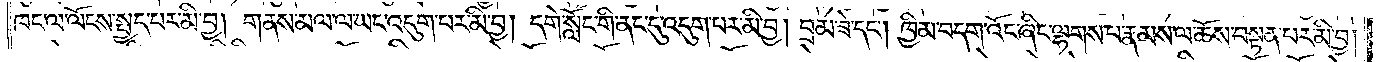ཁང་ལ་ལོངས་སྤྱད་པར་མི་བྱ། གནས་མལ་ལ་ཡང་འདུག་པར་མི་བྱ། དགེ་སློང་གི་ནང་དུ་འདུག་པར་མི་བྱ། བྲམ་ཟེ་དང༌། ཁྱིམ་བདག་འོང་ཞིང་ལྷགས་པ་རྣམས་ལ་ཆོས་བསྟན་པར་མི་བྱ།
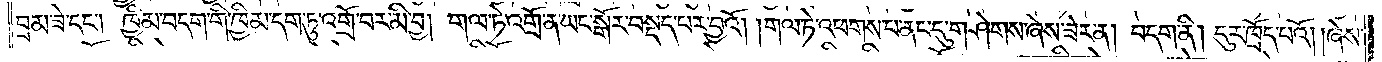བྲམ་ཟེ་དང༌། ཁྱིམ་བདག་གི་ཁྱིམ་དག་ཏུ་འགྲོ་བར་མི་བྱ། གལ་ཏེ་འགྲོ་ན་ཡང་སྒོར་བསྡད་པར་བྱའོ། །གལ་ཏེ་འཕགས་པ་ནང་དུ་གཤེགས་ཞེས་ཟེར་ན། བདག་ནི། དུར་ཁྲོད་པའོ། །ཞེས་
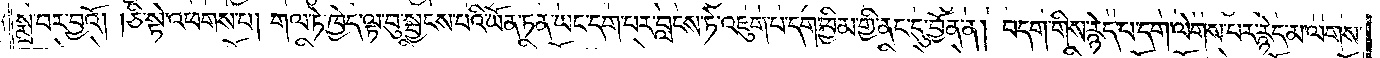སྨྲ་བར་བྱའོ། །ཅི་སྟེ་འཕགས་པ། གལ་ཏེ་ཁྱེད་ལྟ་བུ་སྦྱངས་པའི་ཡོན་ཏན་ཡང་དག་པར་བླངས་ཏེ་འཇུག་པ་དག་ཁྱིམ་གྱི་ནང་དུ་བྱོན་ན། བདག་གིས་རྙེད་པ་དག་ལེགས་པར་རྙེད་མ་ལགས་
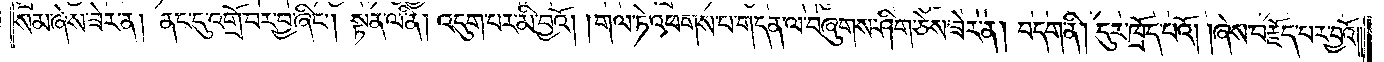སམ་ཞེས་ཟེར་ན། ནང་དུ་འགྲོ་བར་བྱ་ཞིང༌། སྟན་ལ་ནི། འདུག་པར་མི་བྱའོ། །གལ་ཏེ་འཕགས་པ་གདན་ལ་བཞུགས་ཤིག་ཅེས་ཟེར་ན། བདག་ནི། དུར་ཁྲོད་པའོ། །ཞེས་བརྗོད་པར་བྱའོ། །
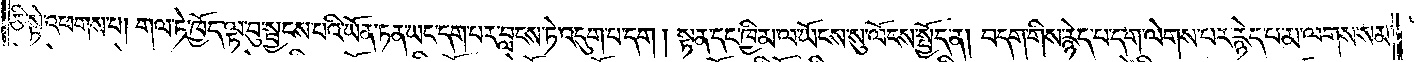ཅི་སྟེ་འཕགས་པ། གལ་ཏེ་ཁྱོད་ལྟ་བུ་སྦྱངས་པའི་ཡོན་ཏན་ཡང་དག་པར་བླངས་ཏེ་འདུག་པ་དག། སྟན་དང་ཁྱིམ་ལ་ཡོངས་སུ་ལོངས་སྤྱོད་ན། བདག་གིས་རྙེད་པ་དག་ལེགས་པར་རྙེད་པ་མ་ལགས་སམ་
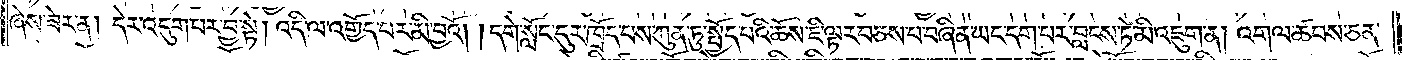ཞེས་ཟེར་ན། དེར་འདུག་པར་བྱ་སྟེ། འདི་ལ་འགྱོད་པར་མི་བྱའོ། །དགེ་སློང་དུར་ཁྲོད་པས་ཀུན་ཏུ་སྤྱོད་པའི་ཆོས་ཇི་ལྟར་བཅས་པ་བཞིན་ཡང་དག་པར་བླངས་ཏེ་མི་འཇུག་ན། འགལ་ཚབས་ཅན་
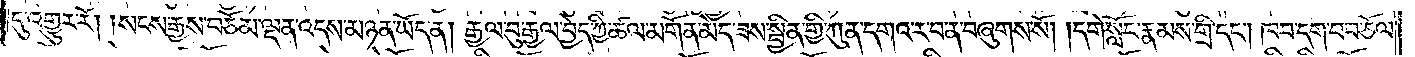དུ་འགྱུར་རོ། །སངས་རྒྱས་བཅོམ་ལྡན་འདས་མཉན་ཡོད་ན། རྒྱལ་བུ་རྒྱལ་བྱེད་ཀྱི་ཚལ་མགོན་མེད་ཟས་སྦྱིན་གྱི་ཀུན་དགའ་ར་བ་ན་བཞུགས་སོ། །དགེ་སློང་རྣམས་གྲི་དང༌། ཁབ་དག་བབ་ཅོལ་
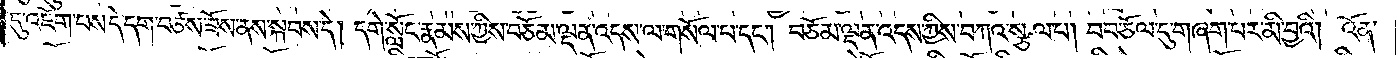དུ་འཇོག་པས་དེ་དག་བཙས་ཟོས་ནས་སྐབས་དེ། དགེ་སློང་རྣམས་ཀྱིས་བཅོམ་ལྡན་འདས་ལ་གསོལ་པ་དང༌། བཅོམ་ལྡན་འདས་ཀྱིས་བཀའ་སྩལ་པ། བབ་ཅོལ་དུ་གཞག་པར་མི་བྱའི། འོན་
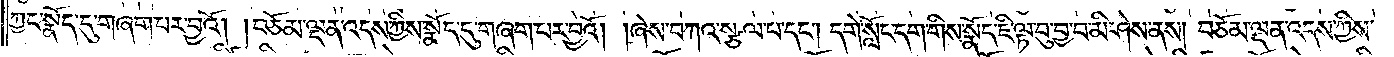ཀྱང་སྣོད་དུ་གཞག་པར་བྱའོ། །བཅོམ་ལྡན་འདས་ཀྱིས་སྣོད་དུ་གཞག་པར་བྱའོ། །ཞེས་བཀའ་སྩལ་པ་དང༌། དགེ་སློང་དག་གིས་སྣོད་ཇི་ལྟ་བུ་བྱ་བ་མི་ཤེས་ནས། བཅོམ་ལྡན་འདས་ཀྱིས་
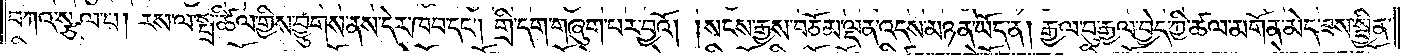བཀའ་སྩལ་པ། རས་ལ་སྤྲ་ཚིལ་གྱིས་བྱུགས་ནས་དེར་ཁབ་དང༌། གྲི་དག་གཞུག་པར་བྱའོ། །སངས་རྒྱས་བཅོམ་ལྡན་འདས་མཉན་ཡོད་ན། རྒྱལ་བུ་རྒྱལ་བྱེད་ཀྱི་ཚལ་མགོན་མེད་ཟས་སྦྱིན་
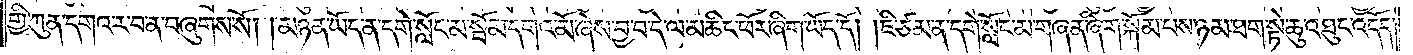གྱི་ཀུན་དགའ་ར་བ་ན་བཞུགས་སོ། །མཉན་ཡོད་ན་དགེ་སློང་མ་སྦོམ་དགའ་མོ་ཞེས་བྱ་བ་དེ་ལ་མཆིང་ཕོར་ཞིག་ཡོད་དོ། །ཇི་ཙམ་ན་དགེ་སློང་མ་གཞན་ཞིག་སྐོམ་པས་ཉམ་ཐག་སྟེ་ཆུ་འཐུང་འདོད་
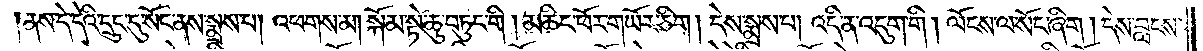ནས་དེ་དེའི་དྲུང་དུ་སོང་ནས་སྨྲས་པ། འཕགས་མ། སྐོམ་སྟེ་ཆུ་བཏུང་གི། མཆིང་ཕོར་གཡོར་ཅིག། དེས་སྨྲས་པ། འདི་ནི་འདུག་གི། ལོངས་ལ་སོང་ཞིག། དེས་བླངས་
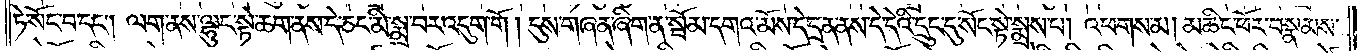ཏེ་སོང་བ་དང༌། ལག་ནས་ལྷུང་སྟེ་ཆག་ནས་དེ་ཅང་མི་སྨྲ་བར་འདུག་གོ། །དུས་གཞན་ཞིག་ན་སྦོམ་དགའ་མོས་དེ་དྲན་ནས་དེ་དེའི་དྲུང་དུ་སོང་སྟེ་སྨྲས་པ། འཕགས་མ། མཆིང་ཕོར་བསྣམས་
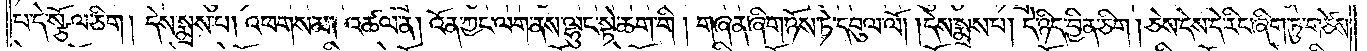པ་དེ་སྩོལ་ཅིག། དེས་སྨྲས་པ། འཕགས་མ། འཚལ་ན། འོན་ཀྱང་ལག་ནས་ལྷུང་སྟེ་ཆག་གི། གཞན་ཞིག་ཉོས་ཏེ་དབུལ་ལོ། །དེས་སྨྲས་པ། དེ་ཉིད་བྱིན་ཅིག། ཅེས་དེས་དེ་རིང་ཞིག་ཏུ་གཙེས།
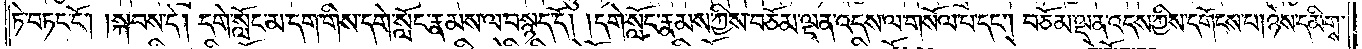ཏེ་བཏང་ངོ༌། །སྐབས་དེ། དགེ་སློང་མ་དག་གིས་དགེ་སློང་རྣམས་ལ་བསྙད་དོ། །དགེ་སློང་རྣམས་ཀྱིས་བཅོམ་ལྡན་འདས་ལ་གསོལ་པ་དང༌། བཅོམ་ལྡན་འདས་ཀྱིས་དགོངས་པ། ཉེས་དམིགས་
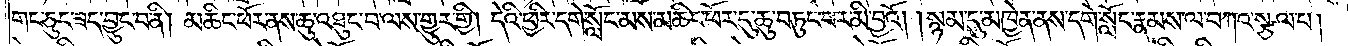གང་ཅུང་ཟད་བྱུང་བ་ནི། མཆིང་ཕོར་ནས་ཆུ་འཐུང་བ་ལས་གྱུར་གྱི། དེའི་ཕྱིར་དགེ་སློང་མས་མཆིང་ཕོར་དུ་ཆུ་བཏུང་བར་མི་བྱའོ། །སྙམ་དུ་མཁྱེན་ནས་དགེ་སློང་རྣམས་ལ་བཀའ་སྩལ་པ།
